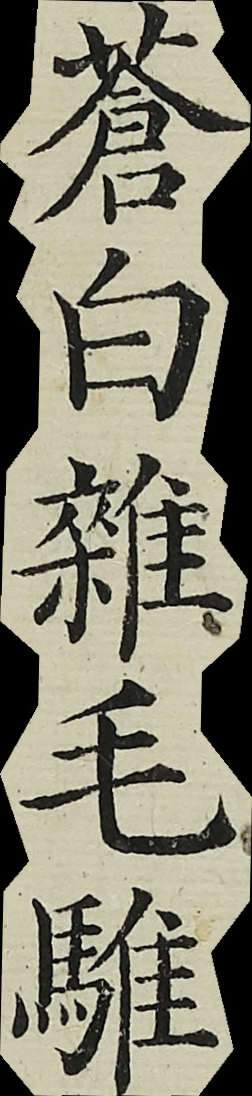蒼白雜毛騅
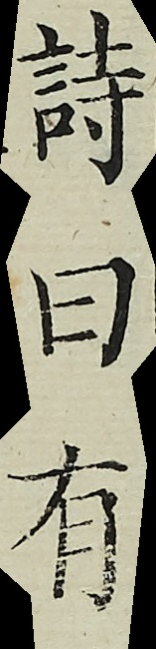詩曰有
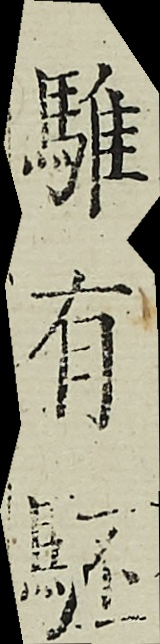騅有駓
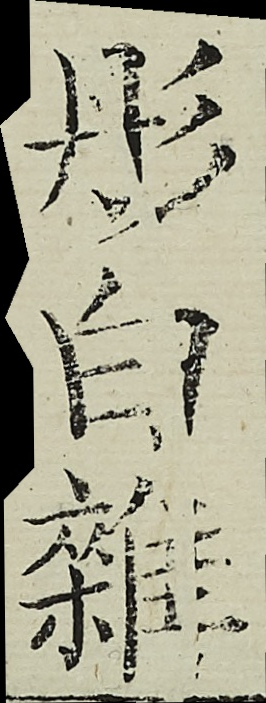形白雜
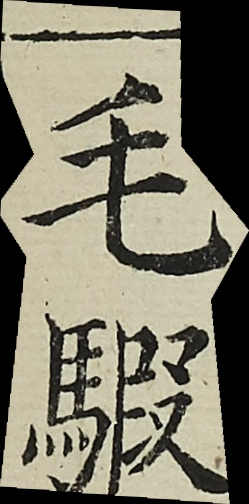毛騢
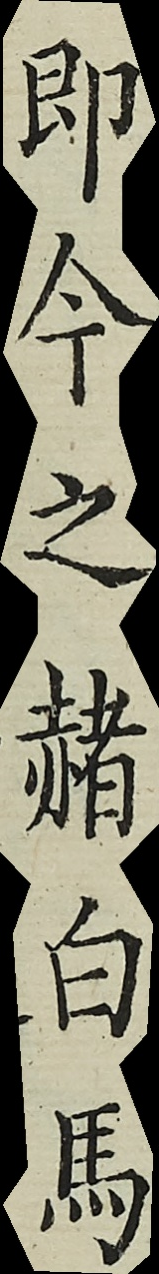即今之赭白馬
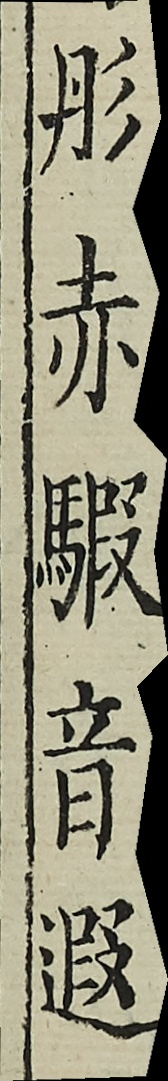彤赤騢音遐
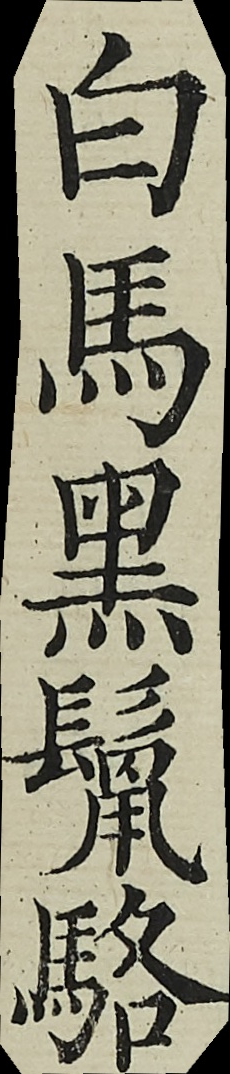白馬黑鬣駱
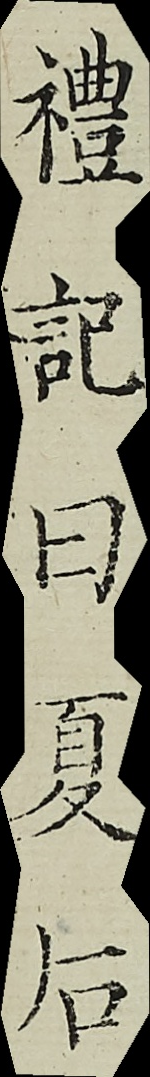禮記曰夏后
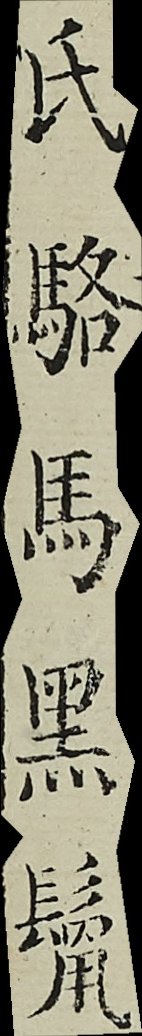氏駱馬黑鬣
